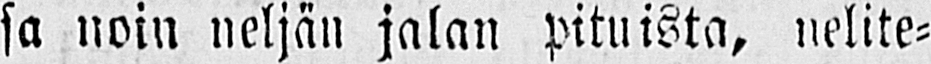sa noin neljän jalan pituista, nelite-
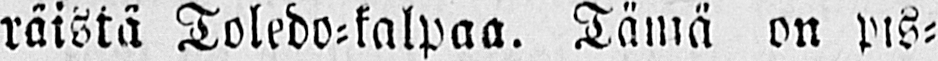räistä Toledo-kalpaa. Tämä on pis-
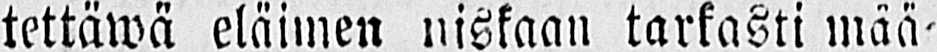tettäwä eläimen niskaan tarkasti mää-
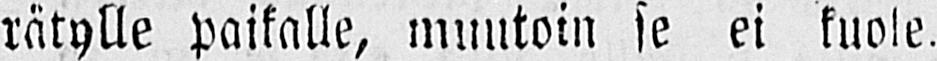rätylle paikalle, muutoin se ei kuole.
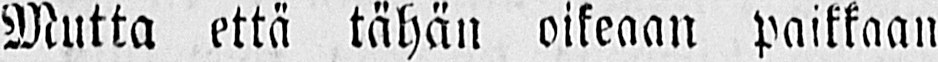Mutta että tähän oikeaan paikkaan
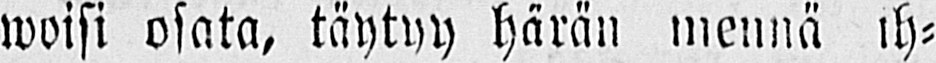woisi osata, täytyy härän mennä ih-
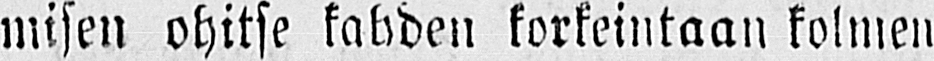misen ohitse kahden korkeintaan kolmen
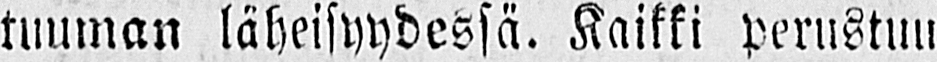tuuman läheisyydessä. Kaikki perustun
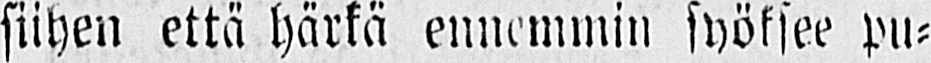siihen että härkä ennemmin syöksee pu-
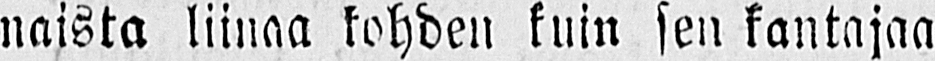naista liinaa kohden kuin sen kantajaa
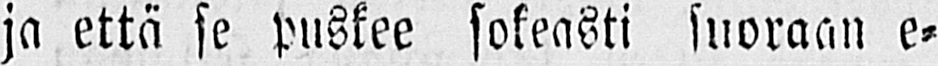ja että se puskee sokeasti suoraan e-
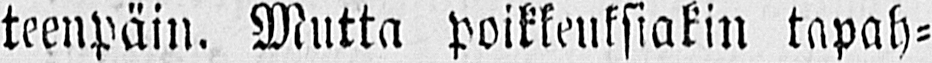teenpäin. Mutta poikkeuksiakin tapah-
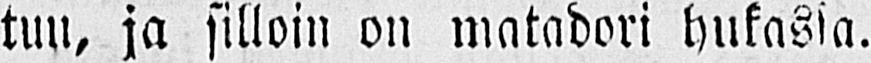tuu, ja silloin on matadori hukassa.
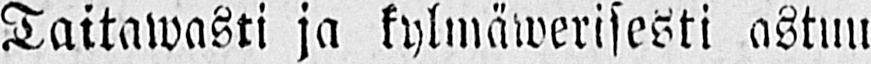Taitawasti ja kylmäwerisesti astuu
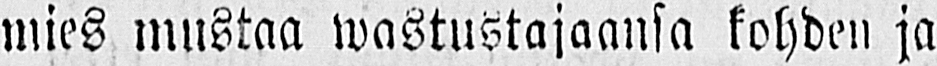mies mustaa wastustajaansa kohden ja
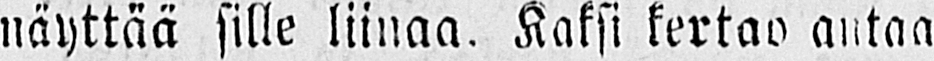näyttää sille liinaa. Kaksi kertao antaa
